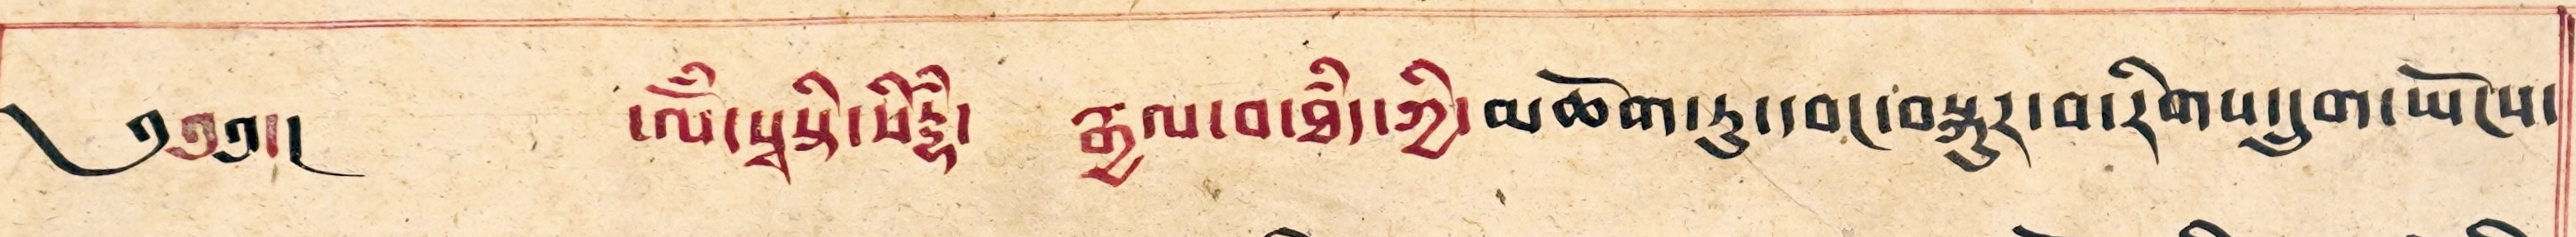༄༅༅།། ཨོཾ་སྭསྟི་སིདྷཾ། རྒྱལ་བ་ཐཾད་ཀྱི་མཆོག་ཏུ་དབང་བསྐུར་བ་རིགས་དྲུག་ཡོངས་
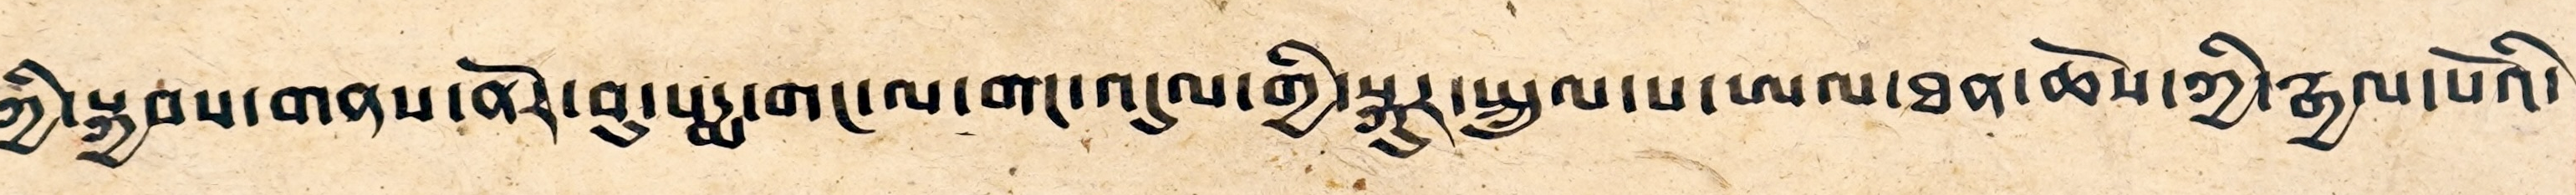ཀྱི་སྐྱབས་གནས་ནོར་བུ་ཡཔདྨ་གང་ལ་གང་འདུལ་གྱི་སྐུར་སྤྲུལ་པ་ཨལ་ཐན་ཆོས་ཀྱི་རྒྱལ་པོའི་
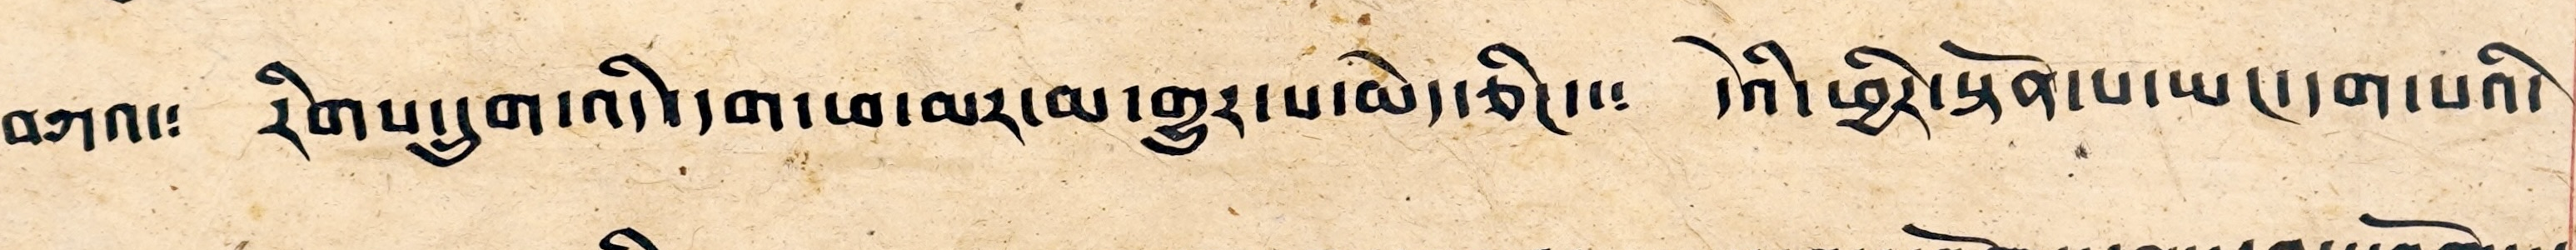བཀའ༴ རིགས་དྲུག་འདི་དག་ཕ་མར་མ་གྱུར་པ་མེད་ཅིང་་༴ དེའི་ཕྱིར་སྟོན་པ་ཡང་དག་པའི་
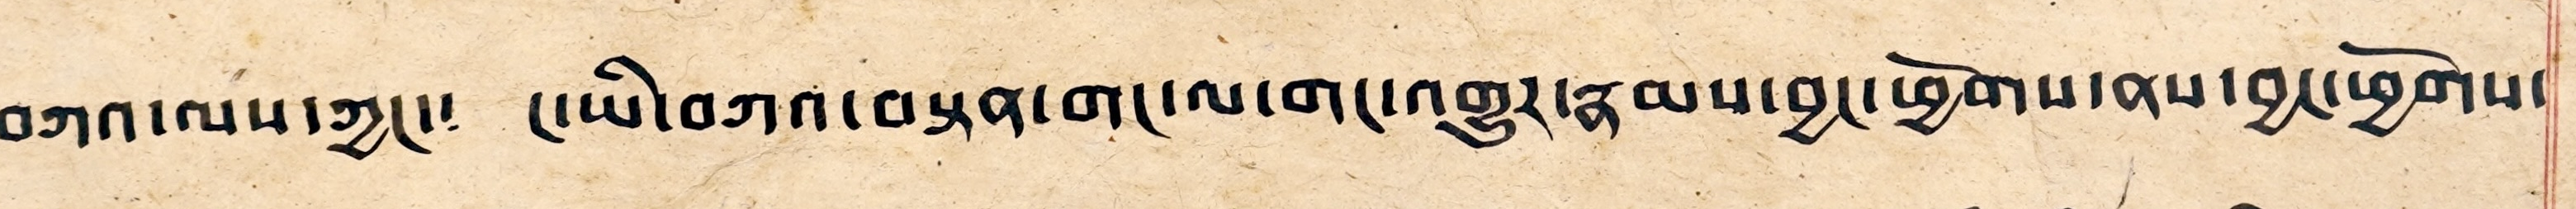བཀའ་ལས་ཀྱང་༴ ང་ཡི་བཀའ་བསྟན་གང་ལ་གང་འགྱུར་རྣམས་བྱང་ཕྱོགས་ནས་བྱང་ཕྱོགས་
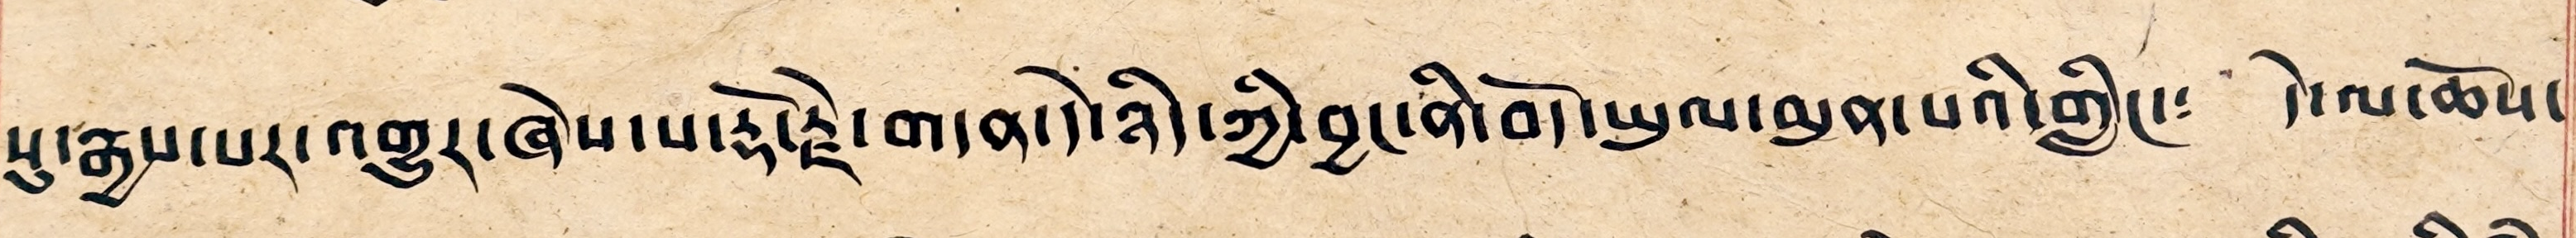སུ་རྒྱས་པར་འགྱུར་ཞེས་པ་རྡོ་རྗེ་གདན་དེ་ཉིད་ཀྱི་བྱང་ནི་བོད་ཡུལ་མུན་པའི་གླིང་༴ དེ་ལ་ཆོས་
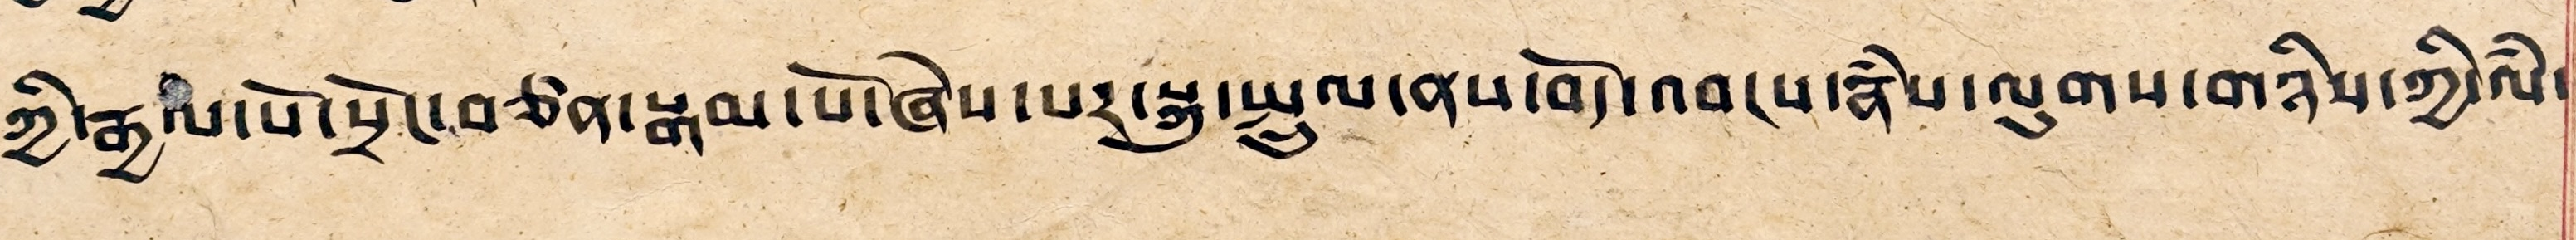ཀྱི་རྒྱལ་པོ་སྲོང་བཙན་སྒམ་པོ་ཞེས་པར་སྐུ་སྤྲུལ་ནས་བོད་འབངས་རྣཾས་ལུགས་གཉིས་ཀྱི་ལཾ་
